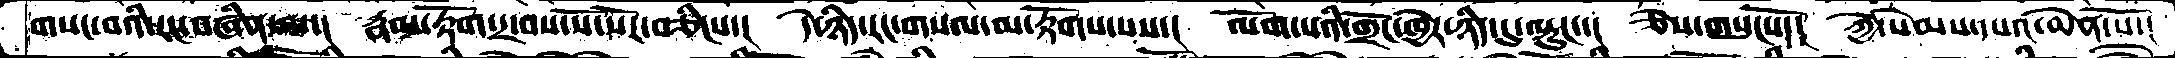གསང་བའི་རང་བཞིན་ལ་།   རྣམ་རྟོག་དྲྲ་བས་སོ་སོར་བཅིངས་།  དེ་ཉིད་རང་གསལ་མ་རྟོགས་པས་།  ལོག་པའི་གྲོང་ཁྱེར་ཉིད་དུ་ལྟུང་་།   ཅེས་གསུངསོ་།  ཀྱེ་སེམས་དཔའ་ཆེན་པོ་།
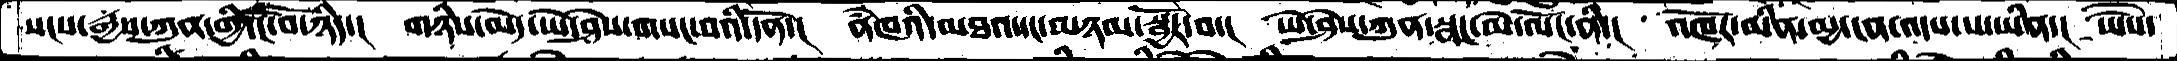སངས་རྒྱས་ཀུན་གྱི་ངོ་བོ་ཉིད་།    གཉིས་མེད་ཡེ་ཤེས་གསང་བའི་དོན་།   ནཾཁའི་མཐའ་དང་མཉམ་སྦྱོར་བ་།  ཡེ་ཤེས་ཀུན་སྣང་མེ་ལོང་ནི་།  འཁོར་མིན་མྱ་ངན་འདས་པ་ཡིན་།  ཡཻས་
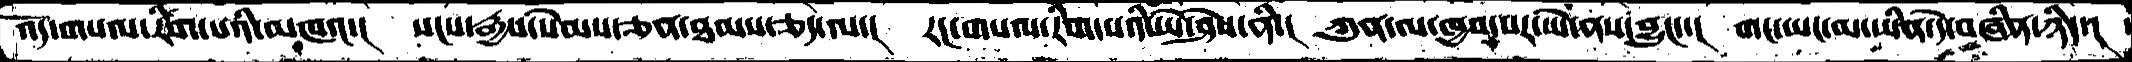འོད་གསལ་རིག་པའི་མཁའ་།  སངས་རྒྱས་སེམས་ཅན་ཐམས་ཅད་ལ་།   རང་གསལ་རིག་པའི་ཡེ་ཤེས་ནི་།  ཀུན་ལ་ཁྱབ་པར་ཡེ་ནས་བྱུང་་།  གང་ཡང་མ་ཡིན་དེ་བཞིན་ཉིད་།
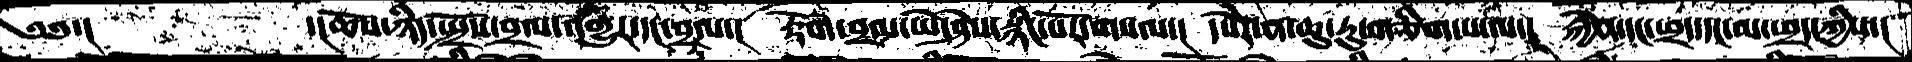༄༅་།            ་།ཆོས་ཉིད་སྤྲོས་བྲལ་འགྱུར་དང་བྲལ་།  རྟོག་བྲལ་ཡེ་ཤེས་སྙིང་པོར་གསལ་།  དཔེར་ན་ཆུ་རུ་གཅིག་པ་ལ་།   རྐྱེན་དང་ཕྲད་དང་མ་ཕྲད་ཀྱིས་།
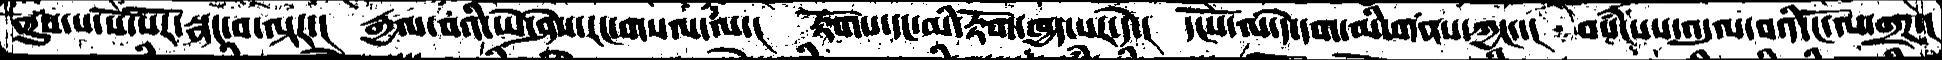ནུབ་པ་སོ་སོར་སྣང་བ་ལྟར་།  རྒྱལ་བའི་ཡེ་ཤེས་རང་གསལ་ལ་།  རྟོགས་དང་མི་རྟོག་ཁྱད་པར་དེ་།  དངོས་ལ་དེ་དག་མི་གནས་ཀྱང་་།  བསཾ་པས་འདུལ་བའི་ངོ་ལ་གྲཌ་།
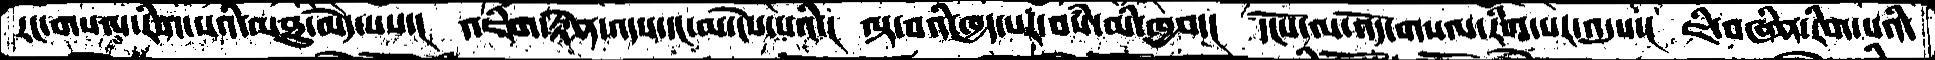རང་གསལ་རིག་པའི་མཐུ་མེད་པས་།   འཇིག་རྟེན་འདས་དང་མ་ངེས་པའི་།  ལྟ་བའི་ཁྱད་པར་བསཾ་མི་ཁྱབ་།  དངོས་ལ་འོད་གསལ་རིག་པར་འདུས་།  ཇི་བཞིན་རིག་པའི་
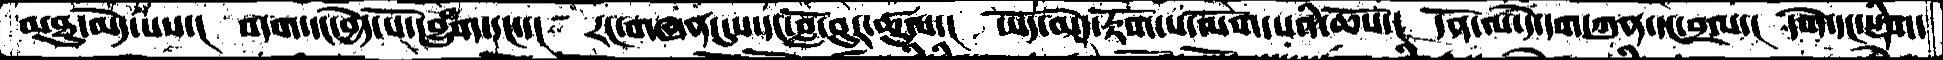མཐུ་མེད་པས་།   བདག་དང་བྱེད་པོ་དབྱུཾག་དང་་།   རང་གཞན་དུས་དང་བློ་བུར་ཚུལ་།   ཡོད་མེད་རྟོག་པ་ལོག་པའི་ཆོས་།   དོན་ལ་དེ་དག་ཀུན་དང་བྲལ་།  དགེ་དང་སྡིག་
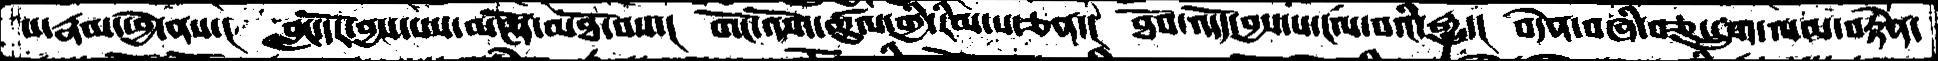པ་རྣམ་ཕྱེ་ནས་།   བླང་དོར་བྱས་པས་མངོན་མཐོ་བས་།  གོང་འོག་ཚུལ་གྱི་རིམ་པ་ཅན་།  ཐོས་འདདོ་བྱས་པ་ངལ་བའི་རྒྱུ་།  བདེན་བཞི་བཅུ་དྲུག་ལམ་བརྟེན་
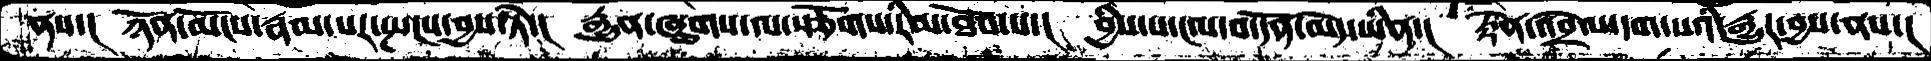ནས་།   ཉོན་མོངས་རྣམ་པར་སྤངས་བྱས་ཏེ་།   རྒྱུན་ཞུགས་ལ་སྩོགས་རིམ་ཐོབ་པ་།  བྱིས་པ་ངལ་བ་དོན་མེད་ཡིན་།   རྟེན་འབྲེལ་དག་པའི་རྒྱུར་བྱས་ནས་།
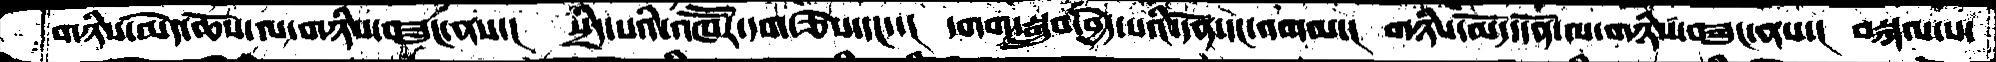གཉིས་མེད་ཆོས་ལ་གཉིས་བཟུང་ནས་།   སྲིད་པའི་འཁཽར་དག་ཅེས་དང་་།   དགག་སྒྲུབ་བྱེད་པའི་དོན་དང་འགལ་།  གཉིས་མེད་དོན་ལ་གཉིས་བཟུང་ནས་།  བསྐལ་པ་
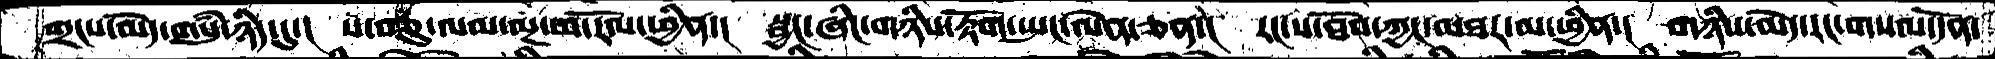གྲངས་མེད་གསུཾ་ཉིད་དུ་།  ས་བཅུ་ལམ་ལྔ་ཕ་རོལ་ཕྱིན་།  སྦྱང་ཞིང་གཉིས་རྟོག་སྤང་ལེན་ཅན་།  རང་ས་ཐོབ་ཀྱང་མཐར་མ་ཕྱིན་།  གཉིས་མེད་རང་གསལ་དོན་
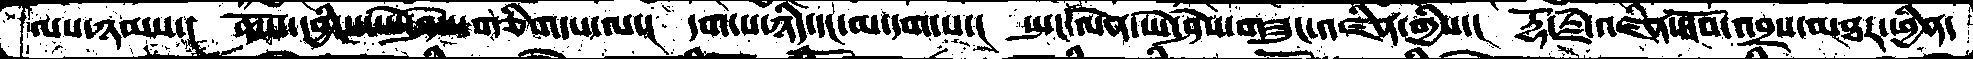ལས་ཉམས་།  ཆོས་དབྱིངས་ཡེ་ཤེས་གཅིག་པ་ལ་།  དག་པ་ཉིད་དང་མ་དག་པ་།  སྤང་ལེན་ཡེ་ཤེས་གཟུང་འཛིན་གྱིས་།  རྡོ་རྗེ་འཛིན་ཐོབ་འབྲས་མཐར་ཕྱིན་
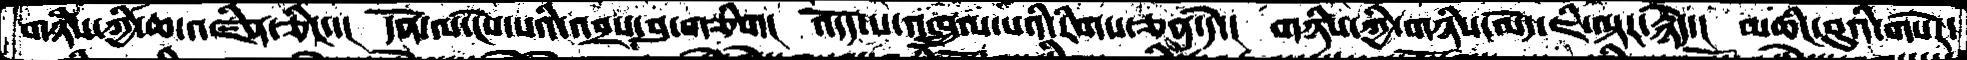གཉིས་ཀྱི་ཆ་འཛིན་ཅིང་་།  དོན་ལ་ངེས་པའི་འབྲས་བུ་གཅིག།  འདོད་པ་འཁྲུལ་པའི་རིགས་ཅན་དེ་།  གཉིས་ཀྱི་གཉིས་མེད་ཇི་ལྟར་རྙེད་།  མཆིང་བུའི་གསེར་
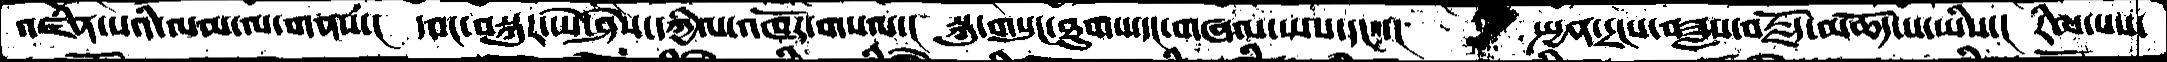འཛིན་པའི་ལམ་ལ་གནས་།  དབང་བསྐུར་ཡེ་ཤེས་དཀྱིལ་འཁོར་གསལ་།  སྐུ་གསུང་ཐུགས་དང་གཞལ་ཡས་དང་་།  སྤྱན་དྲངས་བཟླས་བརྗོད་མཆོད་པ་ཡིས་།  རིམ་པས་
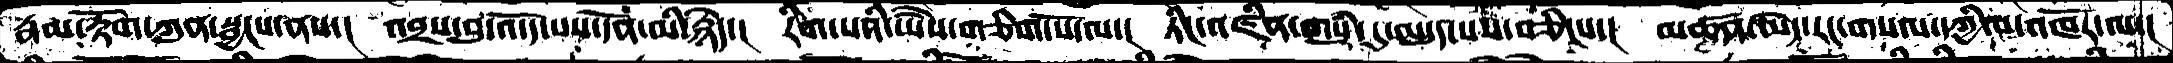རྣམ་རྟོག་ཀུན་སྦྱངས་ནས་།  འབྲས་བུ་འདོད་པས་དོན་མི་རྙེད་།  རིག་པའི་ཡཻས་གཅིག་པོ་ལ་།  ཏིང་འཛིན་གསུཾ་དུ་མདུད་པས་བཅིངས་།  མཚན་མེད་རང་གསལ་དཀྱིལ་འཁོར་ལ་།
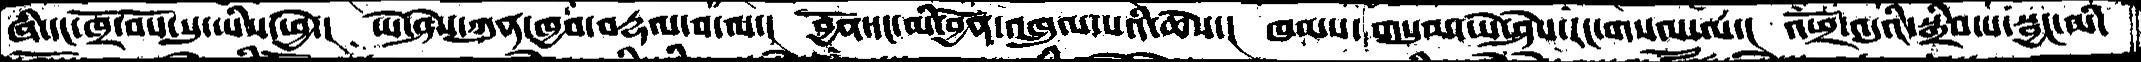ཞི་དང་ཁྲོ་བོས་སུ་ཡིས་ཕྱེ་།   ཡེ་ཤེས་ཀུན་ཁྱབ་བརྡལ་བ་ལ་།  བྱོན་དང་མི་བྱོན་འཁྲུལ་པའི་ཆོས་།  ཁམས་གསུམ་ཡེ་ཤེས་རང་གསལ་ལ་།  འཕྲོ་འདུའི་སྒྲིབ་པ་སྦྱང་མི་
